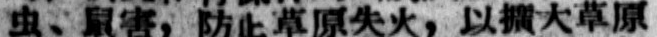虫、鼠害，防止草原失火，以擴大草原
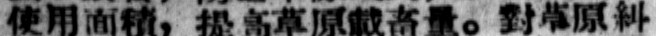使用面積，提高草原載畜量。對草原糾
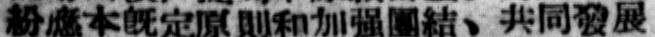紛應本既定原則和加強團結、共同發展
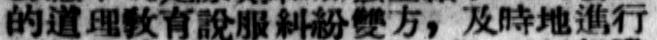的道理敎育說服糾紛雙方，及時地進行
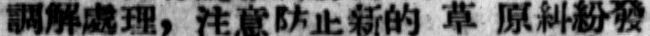調解處理，注意防止新的 草 原糾紛發
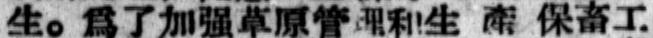生。爲了加強草原管理和生 產 保畜工
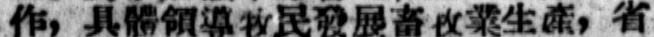作，具體領導牧民發展畜牧業生產，省
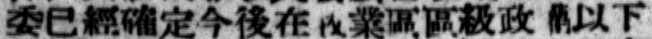委已經確定今後在牧業區區級政策以下
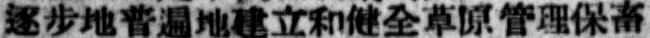逐步地普遍地建立和健全草原管理保畜
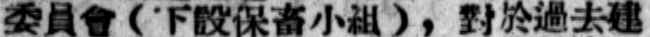委員會（下設保畜小組），對於過去建
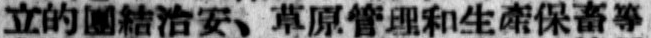立的團結治安、草原管理和生產保畜等
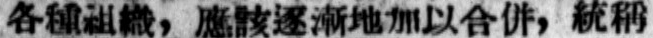各種組織，應該逐漸地加以合併，統稱
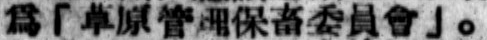爲「草原管理保畜委員會」。
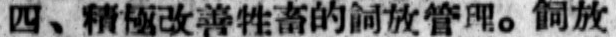四、積極改善畜牧的飼放管理。飼放
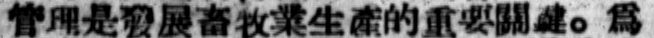管理是發展畜牧業生產的重要關鍵。爲
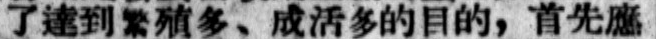了達到繁殖多、成活多的目的，首先應
